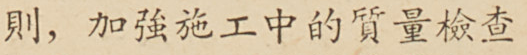則，加強施工中的質量檢查
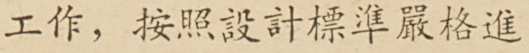工作，按照設計標準嚴格進
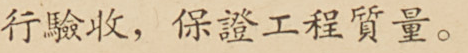行驗收，保證工程質量。
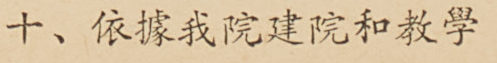十、依據我院建院和教學
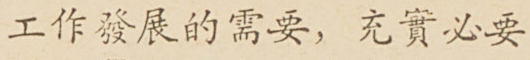工作發展的需要，充實必要
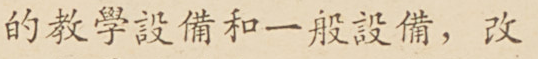的教學設備和一般設備，改
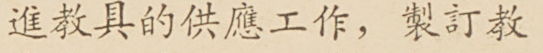進教具的供應工作，制訂教
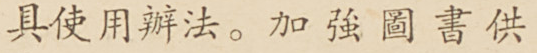具使用辦法。加強圖書供
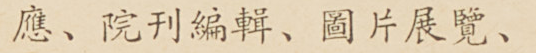應、院刊編輯、圖片展覽、
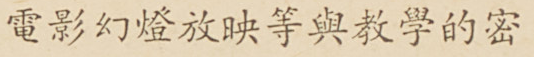電影幻燈放映等與教學的密
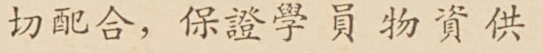切配合，保證學員物資供
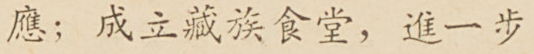應；成立藏族食堂，進一步
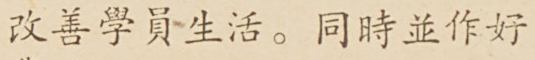改善學員生活。同時並作好
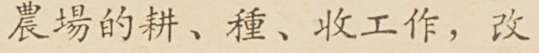農場的耕、種、收工作，改
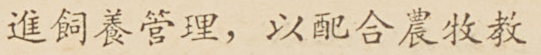進飼養管理，以配合農牧教
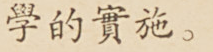學的實施。
